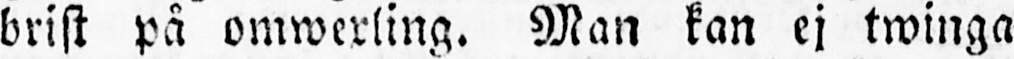brist på omwexling. Man kan ej twinga
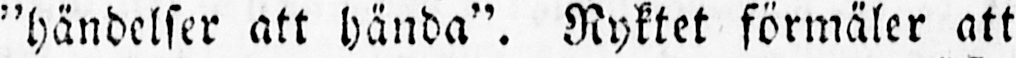"händelser att hända". Ryktet förmäler att
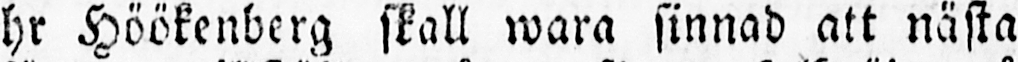hr Höökenberg skall wara sinnad att nästa
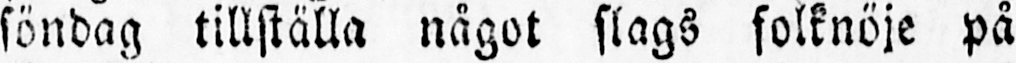söndag tillställa något slags folknöje på
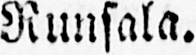Runsala.
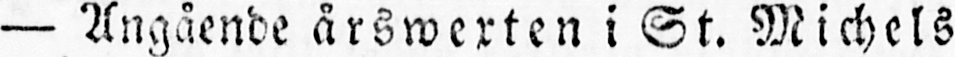— Angående årswexten i St. Michels
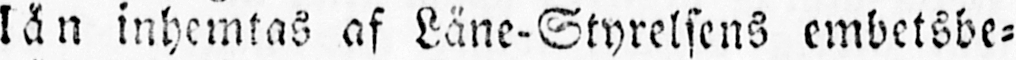län inhemtas af Läne-Styrelsens embetsbe-
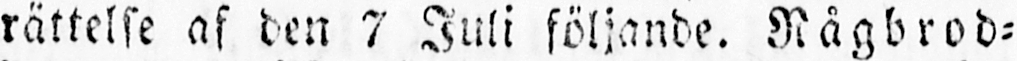rättelse af den 7 Juli följande. Rågbrod-
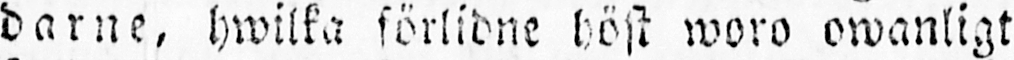darne, hwilka förlidne höst woro owanligt
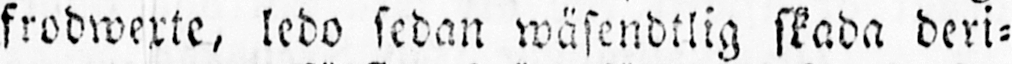frodwexte, ledo sedan wäsendtlig skada deri-
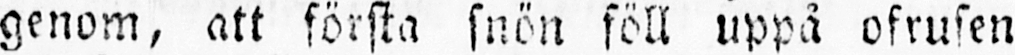genom, att första snön föll uppå ofrusen
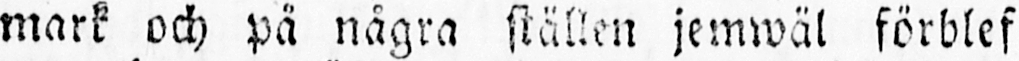mark och på några ställen jemwäl förblef
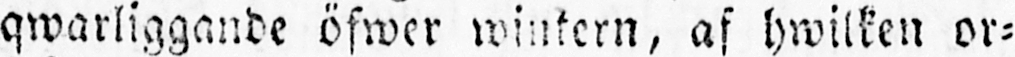qwarliggande öfwer wintern, af hwilken or-
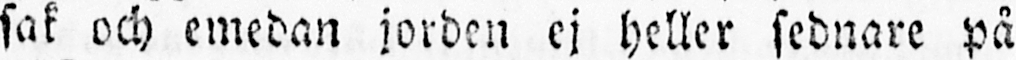sak och emedan jorden ej heller sednare på
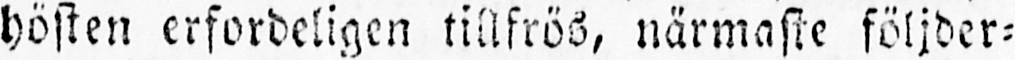hösten erfordeligen tillfrös, närmaste följder-
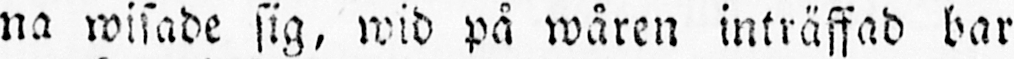na wisade sig, wid på wåren inträffad bar
